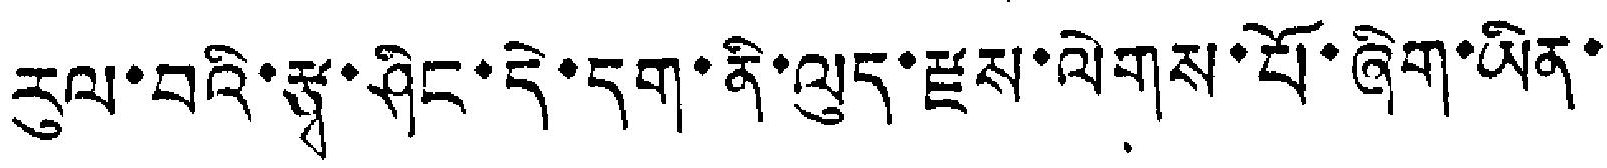རུལ་བའི་རྩྭ་ཤིང་དེ་དག་ནི་ལུད་རྫས་ལེགས་པོ་ཞིག་ཡིན་
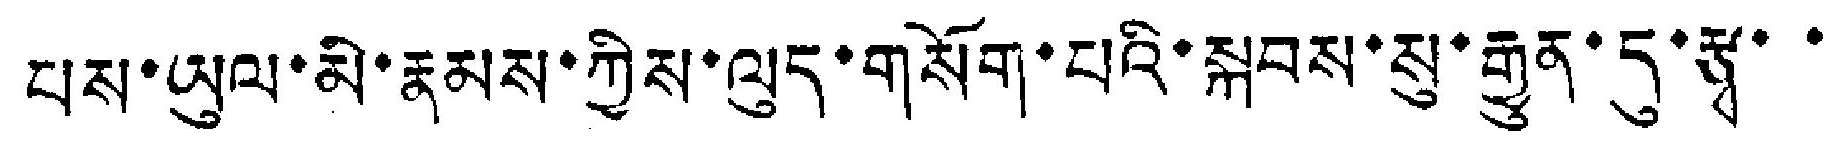པས་ཡུལ་མི་རྣམས་ཀྱིས་ལུད་གསོག་པའི་སྐབས་སུ་རྒྱུན་དུ་རྩྭ་་
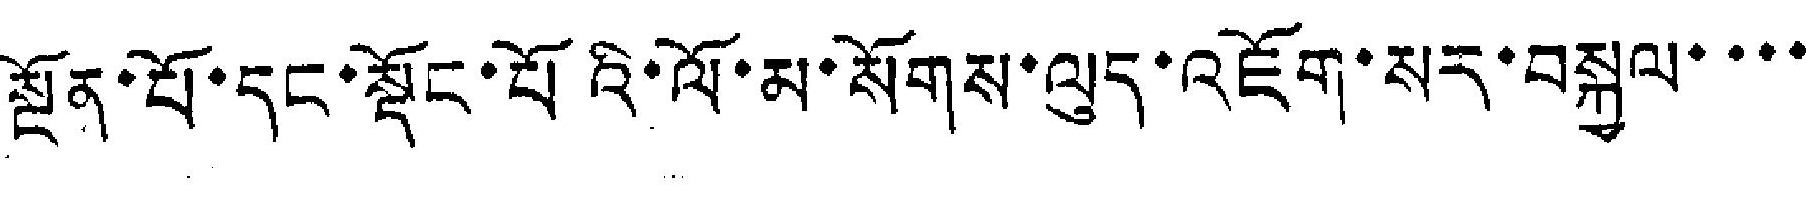སྔོན་པོ་དང་སྡོང་པོའི་ལོ་མ་སོགས་ལུད་འཇོག་སར་བསྐྱལ་་་་
